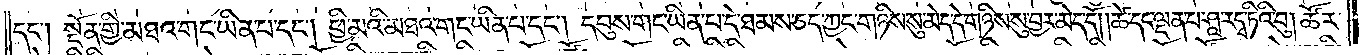དང༌། སྔོན་གྱི་མཐའ་གང་ཡིན་པ་དང༌། ཕྱི་མའི་མཐའ་གང་ཡིན་པ་དང༌། དབུས་གང་ཡིན་པ་དེ་ཐམས་ཅད་ཀྱང་གཉིས་སུ་མེད་དེ་གཉིས་སུ་བྱར་མེད་དོ། །ཚེ་དང་ལྡན་པ་ཤཱ་རདྭ་ཏིའི་བུ། ཚོར་
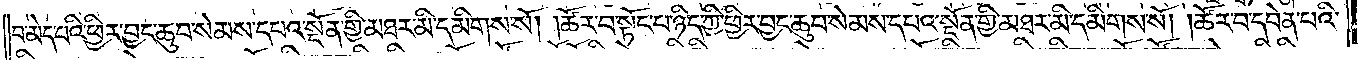བ་མེད་པའི་ཕྱིར་བྱང་ཆུབ་སེམས་དཔའ་སྔོན་གྱི་མཐར་མི་དམིགས་སོ། །ཚོར་བ་སྟོང་པ་ཉིད་ཀྱི་ཕྱིར་བྱང་ཆུབ་སེམས་དཔའ་སྔོན་གྱི་མཐར་མི་དམིགས་སོ། །ཚོར་བ་དབེན་པའི་
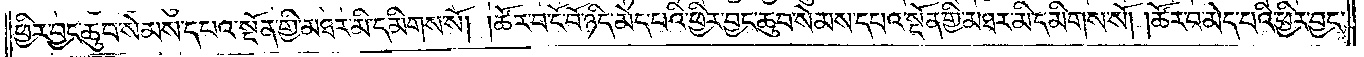ཕྱིར་བྱང་ཆུབ་སེམས་དཔའ་སྔོན་གྱི་མཐར་མི་དམིགས་སོ། །ཚོར་བ་ངོ་བོ་ཉིད་མེད་པའི་ཕྱིར་བྱང་ཆུབ་སེམས་དཔའ་སྔོན་གྱི་མཐར་མི་དམིགས་སོ། །ཚོར་བ་མེད་པའི་ཕྱིར་བྱང་
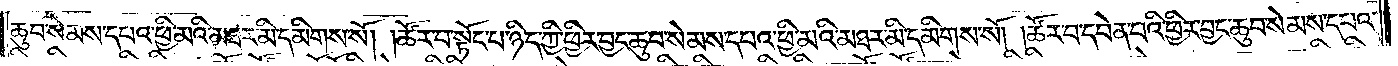ཆུབ་སེམས་དཔའ་ཕྱི་མའི་མཐར་མི་དམིགས་སོ། །ཚོར་བ་སྟོང་པ་ཉིད་ཀྱི་ཕྱིར་བྱང་ཆུབ་སེམས་དཔའ་ཕྱི་མའི་མཐར་མི་དམིགས་སོ། །ཚོར་བ་དབེན་པའི་ཕྱིར་བྱང་ཆུབ་སེམས་དཔའ་
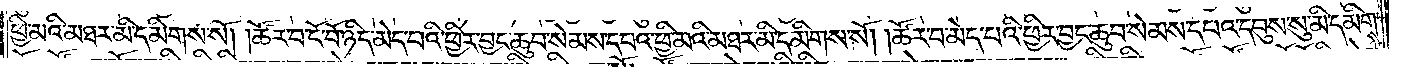ཕྱི་མའི་མཐར་མི་དམིགས་སོ། །ཚོར་བ་ངོ་བོ་ཉིད་མེད་པའི་ཕྱིར་བྱང་ཆུབ་སེམས་དཔའ་ཕྱི་མའི་མཐར་མི་དམིགས་སོ། །ཚོར་བ་མེད་པའི་ཕྱིར་བྱང་ཆུབ་སེམས་དཔའ་དབུས་སུ་མི་དམིགས་
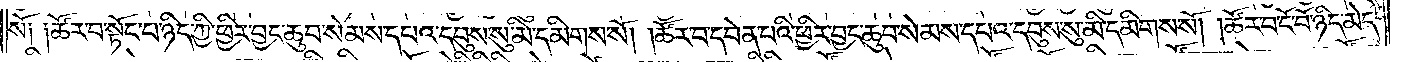སོ། །ཚོར་བ་སྟོང་པ་ཉིད་ཀྱི་ཕྱིར་བྱང་ཆུབ་སེམས་དཔའ་དབུས་སུ་མི་དམིགས་སོ། །ཚོར་བ་དབེན་པའི་ཕྱིར་བྱང་ཆུབ་སེམས་དཔའ་དབུས་སུ་མི་དམིགས་སོ། །ཚོར་བ་ངོ་བོ་ཉིད་མེད་
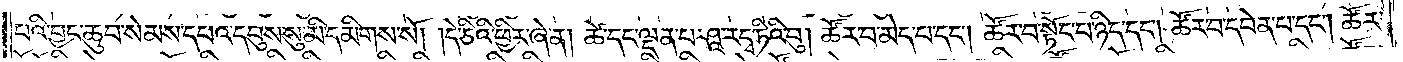པའི་ཕྱིར་བྱང་ཆུབ་སེམས་དཔའ་དབུས་སུ་མི་དམིགས་སོ། །དེ་ཅིའི་ཕྱིར་ཞེ་ན། ཚེ་དང་ལྡན་པ་ཤཱ་རདྭ་ཏིའི་བུ། ཚོར་བ་མེད་པ་དང༌། ཚོར་བ་སྟོང་པ་ཉིད་དང༌། ཚོར་བ་དབེན་པ་དང༌། ཚོར་བ་
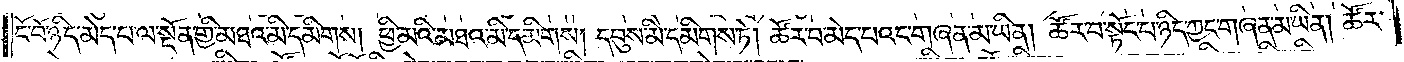ངོ་བོ་ཉིད་མེད་པ་ལ་སྔོན་གྱི་མཐའ་མི་དམིགས། ཕྱི་མའི་མཐའ་མི་དམིགས། དབུས་མི་དམིགས་ཏེ། ཚོར་བ་མེད་པའང་གཞན་མ་ཡིན། ཚོར་བ་སྟོང་པ་ཉིད་ཀྱང་གཞན་མ་ཡིན། ཚོར་
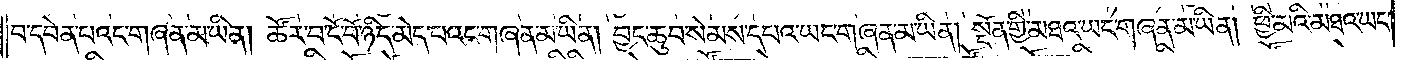བ་དབེན་པའང་གཞན་མ་ཡིན། ཚོར་བ་ངོ་བོ་ཉིད་མེད་པའང་གཞན་མ་ཡིན། བྱང་ཆུབ་སེམས་དཔའ་ཡང་གཞན་མ་ཡིན། སྔོན་གྱི་མཐའ་ཡང་གཞན་མ་ཡིན། ཕྱི་མའི་མཐའ་ཡང་
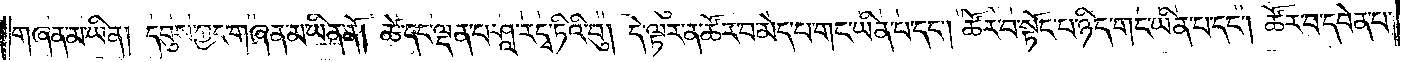གཞན་མ་ཡིན། དབུས་ཀྱང་གཞན་མ་ཡིན་ནོ། །ཚེ་དང་ལྡན་པ་ཤཱ་རདྭ་ཏིའི་བུ། དེ་ལྟར་ན་ཚོར་བ་མེད་པ་གང་ཡིན་པ་དང༌། ཚོར་བ་སྟོང་པ་ཉིད་གང་ཡིན་པ་དང༌། ཚོར་བ་དབེན་པ་
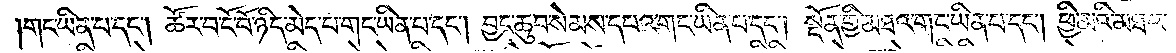གང་ཡིན་པ་དང༌། ཚོར་བ་ངོ་བོ་ཉིད་མེད་པ་གང་ཡིན་པ་དང༌། བྱང་ཆུབ་སེམས་དཔའ་གང་ཡིན་པ་དང༌། སྔོན་གྱི་མཐའ་གང་ཡིན་པ་དང༌། ཕྱི་མའི་མཐའ་
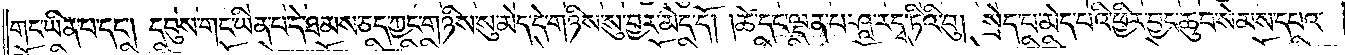གང་ཡིན་པ་དང༌། དབུས་གང་ཡིན་པ་དེ་ཐམས་ཅད་ཀྱང་གཉིས་སུ་མེད་དེ་གཉིས་སུ་བྱར་མེད་དོ། །ཚེ་དང་ལྡན་པ་ཤཱ་རདྭ་ཏིའི་བུ། སྲེད་པ་མེད་པའི་ཕྱིར་བྱང་ཆུབ་སེམས་དཔའ་
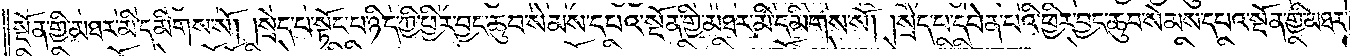སྔོན་གྱི་མཐར་མི་དམིགས་སོ། །སྲེད་པ་སྟོང་པ་ཉིད་ཀྱི་ཕྱིར་བྱང་ཆུབ་སེམས་དཔའ་སྔོན་གྱི་མཐར་མི་དམིགས་སོ། །སྲེད་པ་དབེན་པའི་ཕྱིར་བྱང་ཆུབ་སེམས་དཔའ་སྔོན་གྱི་མཐར་
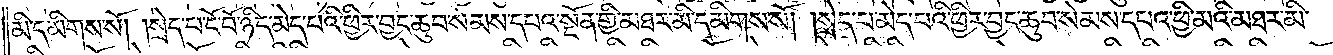མི་དམིགས་སོ། །སྲེད་པ་ངོ་བོ་ཉིད་མེད་པའི་ཕྱིར་བྱང་ཆུབ་སེམས་དཔའ་སྔོན་གྱི་མཐར་མི་དམིགས་སོ། །སྲེད་པ་མེད་པའི་ཕྱིར་བྱང་ཆུབ་སེམས་དཔའ་ཕྱི་མའི་མཐར་མི་
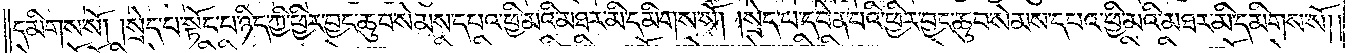དམིགས་སོ། །སྲེད་པ་སྟོང་པ་ཉིད་ཀྱི་ཕྱིར་བྱང་ཆུབ་སེམས་དཔའ་ཕྱི་མའི་མཐར་མི་དམིགས་སོ། །སྲེད་པ་དབེན་པའི་ཕྱིར་བྱང་ཆུབ་སེམས་དཔའ་ཕྱི་མའི་མཐར་མི་དམིགས་སོ། །
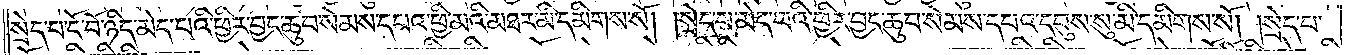སྲེད་པ་ངོ་བོ་ཉིད་མེད་པའི་ཕྱིར་བྱང་ཆུབ་སེམས་དཔའ་ཕྱི་མའི་མཐར་མི་དམིགས་སོ། །སྲེད་པ་མེད་པའི་ཕྱིར་བྱང་ཆུབ་སེམས་དཔའ་དབུས་སུ་མི་དམིགས་སོ། །སྲེད་པ་
